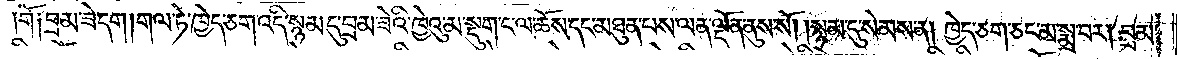གོ༑ བྲམ་ཟེ་དག །གལ་ཏེ་ཁྱེད་ཅག་འདི་སྙམ་དུ་བྲམ་ཟེའི་ཁྱེའུ་མ་སྡུག་ང་ལ་ཆོས་དང་མཐུན་པས་ལན་ལྡོན་ནུས་སོ། །སྙམ་དུ་སེམས་ན། ཁྱེད་ཅག་ཅང་མ་སྨྲ་བར། བྲམ་
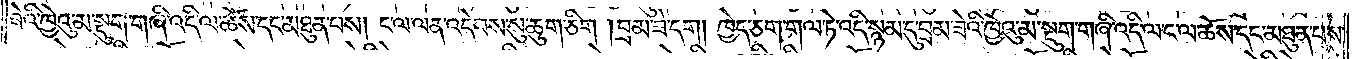ཟེའི་ཁྱེའུ་མ་སྡུག་གཞི་འདི་ལ་ཆོས་དང་མཐུན་པས། ང་ལ་ལན་འདེབས་སུ་ཆུག་ཅིག །བྲམ་ཟེ་དག། ཁྱེད་ཅག་གལ་ཏེ་འདི་སྙམ་དུ་བྲམ་ཟེའི་ཁྱེའུ་མ་སྡུག་གཞི་འདི་ལ་ང་ལ་ཆོས་དང་མཐུན་པས་
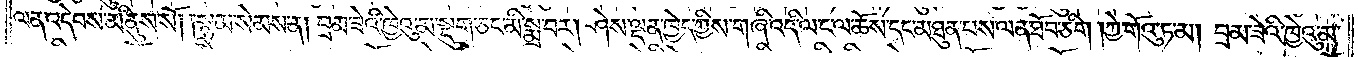ལན་འདེབས་མི་ནུས་སོ། །སྙམ་སེམས་ན། བྲམ་ཟེའི་ཁྱེའུ་མ་སྡུག་ཅང་མི་སྨྲ་བར། ཤེས་ལྡན་ཁྱེད་ཀྱིས་གཞི་འདི་ལ་ང་ལ་ཆོས་དང་མཐུན་པས་ལན་ཐོབ་ཅིག །ཀྱེ་གོའུ་ཏ་མ། བྲམ་ཟེའི་ཁྱེའུ་མ་
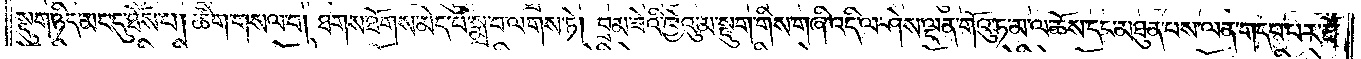སྡུག་ཉིད་མང་དུ་ཐོས་པ། ཚིག་གསལ་བ། ཐགས་ཐོགས་མེད་པ་སྨྲ་བ་ལགས་ཏེ། བྲམ་ཟེའི་ཁྱེའུ་མ་སྡུག་གིས་གཞི་འདི་ལ་ཤེས་ལྡན་གོའུ་ཏ་མ་ལ་ཆོས་དང་མཐུན་པས་ལན་གདབ་པར་རྔོ་
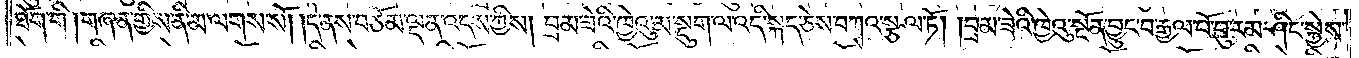ཐོག་གི །གཞན་གྱིས་ནི་མ་ལགས་སོ། །དེ་ནས་བཅོམ་ལྡན་འདས་ཀྱིས། བྲམ་ཟེའི་ཁྱེའུ་མ་སྡུག་ལ་འདི་སྐད་ཅེས་བཀའ་སྩལ་ཏོ། །བྲམ་ཟེའི་ཁྱེའུ་སྔོན་བྱུང་བ་རྒྱལ་པོ་བུ་རམ་ཤིང་སྐྱེས་
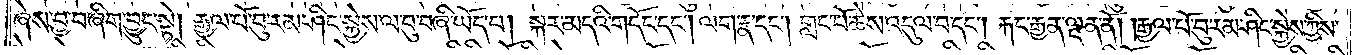ཞེས་བྱ་བ་ཞིག་བྱུང་སྟེ། རྒྱལ་པོ་བུ་རམ་ཤིང་སྐྱེས་ལ་བུ་བཞི་ཡོད་པ། སྐར་མདའི་གདོང་དང༌། ལག་རྣ་དང༌། གླང་པོ་ཆེས་འདུལ་བ་དང༌། རྐང་རྒྱན་ལྡན་ནོ། །རྒྱལ་པོ་བུ་རམ་ཤིང་སྐྱེས་ཀྱིས་
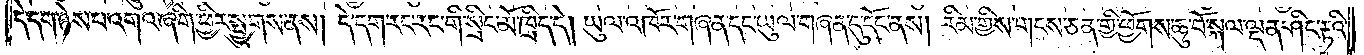དེ་དག་ཉེས་པ་འགའ་ཞིག་ཕྱིར་སྤྱུགས་ནས། དེ་དག་རང་རང་གི་སྲིང་མོ་ཁྲིད་དེ། ཡུལ་འཁོར་གཞན་དང་ཡུལ་གཞན་དུ་དོང་ནས། རིམ་གྱིས་གངས་ཅན་གྱི་ཕྱོགས་ཆུ་བོ་སྐལ་ལྡན་ཤིང་རྟའི་
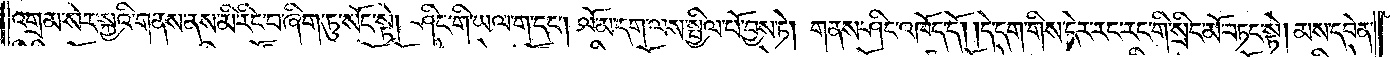འགྲམ་སེར་སྐྱའི་གནས་ནས་མི་རིང་བ་ཞིག་ཏུ་སོང་སྟེ། ཤིང་གི་ཡལ་ག་དང༌། ལོ་མ་དག་ལས་སྤྱིལ་བོ་བྱས་ཏེ། གནས་ཤིང་འཁོད་དོ། །དེ་དག་གིས་དེར་རང་རང་གི་སྲིང་མོ་བཏང་སྟེ། མས་དབེན་
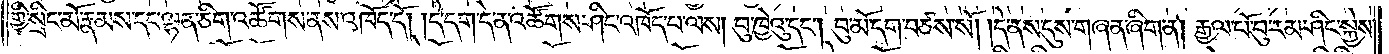གྱི་སྲིང་མོ་རྣམས་དང་ལྷན་ཅིག་འཚོགས་ནས་འཁོད་དོ། །དེ་དག་དེ་ན་འཚོགས་ཤིང་འཁོད་པ་ལས། བུ་ཁྱེའུ་དང༌། བུ་མོ་དག་བཙས་སོ། །དེ་ནས་དུས་གཞན་ཞིག་ན། རྒྱལ་པོ་བུ་རམ་ཤིང་སྐྱེས་
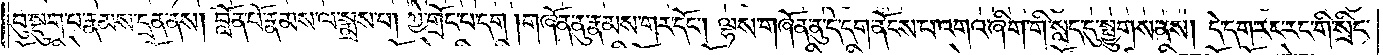བུ་སྡུག་པ་རྣམས་དྲན་ནས། བློན་པོ་རྣམས་ལ་སྨྲས་པ། ཀྱེ་གྲོང་པ་དག །གཞོན་ནུ་རྣམས་གར་དོང༌། ལྷས་གཞོན་ནུ་དེ་དག་ནོངས་པ་འགའ་ཞིག་གི་སླད་དུ་སྤྱུགས་ནས། དེ་དག་རང་རང་གི་སྲིང་
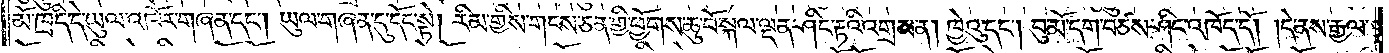མོ་ཁྲིད་དེ་ཡུལ་འཁོར་གཞན་དང༌། ཡུལ་གཞན་དུ་དོང་སྟེ། རིམ་གྱིས་གངས་ཅན་གྱི་ཕྱོགས་ཆུ་བོ་སྐལ་ལྡན་ཤིང་རྟའི་འགྲམ་ན། ཁྱེའུ་དང༌། བུ་མོ་དག་བཙས་ཤིང་འཁོད་དོ། །དེ་ནས་རྒྱལ་
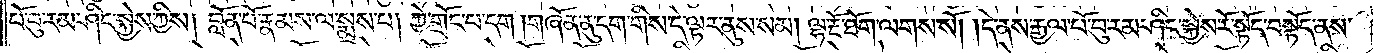པོ་བུ་རམ་ཤིང་སྐྱེས་ཀྱིས། བློན་པོ་རྣམས་ལ་སྨྲས་པ། ཀྱེ་གྲོང་པ་དག །གཞོན་ནུ་དག་གིས་དེ་ལྟར་ནུས་སམ། ལྷ་རྔོ་ཐོག་ལགས་སོ། །དེ་ནས་རྒྱལ་པོ་བུ་རམ་ཤིང་སྐྱེས་རོ་སྟོད་བསྟོད་ནས་
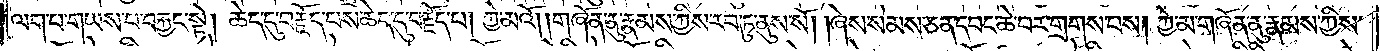ལག་པ་གཡས་པ་བརྐྱང་སྟེ། ཆེད་དུ་བརྗོད་པས་ཆེད་དུ་བརྗོད་པ། ཀྱེ་མའོ། །གཞོན་ནུ་རྣམས་ཀྱིས་རབ་ཏུ་ནུས་སོ། །ཞེས་སེམས་ཅན་དབང་ཆེ་བར་གྲགས་པས། ཀྱེ་མ་གཞོན་ནུ་རྣམས་ཀྱིས་
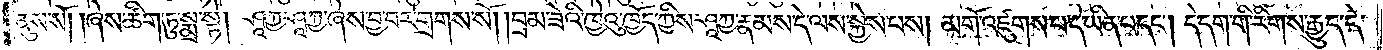ནུས་སོ། །ཞེས་ཚིག་ཏུ་སྨྲ་སྟེ། ཤཱཀྱ་ཤཱཀྱ་ཞེས་བྱ་བར་གྲགས་སོ། །བྲམ་ཟེའི་ཁྱེའུ་ཁྱོད་ཀྱིས་ཤཱཀྱ་རྣམས་དེ་ལས་སྐྱེས་པས། མགོ་འཛུགས་པ་དེ་ཡིན་པ་དང༌། དེ་དག་གི་རིགས་རྒྱུད་དེ་
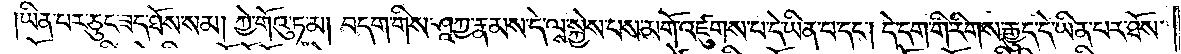ཡིན་པར་ཅུང་ཟད་ཐོས་སམ། ཀྱེ་གོའུ་ཏ་མ། བདག་གིས་ཤཱཀྱ་རྣམས་དེ་ལས་སྐྱེས་པས་མགོ་འཛུགས་པ་དེ་ཡིན་པ་དང༌། དེ་དག་གི་རིགས་རྒྱུད་དེ་ཡིན་པར་ཐོས་
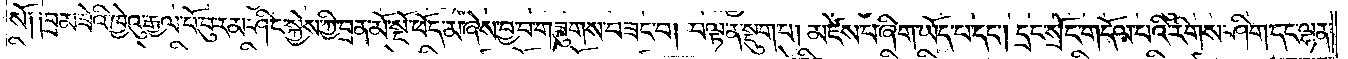སོ༑ ༑བྲམ་ཟེའི་ཁྱེའུ་རྒྱལ་པོ་བུ་རམ་ཤིང་སྐྱེས་ཀྱི་བྲན་མོ་སྔོ་ཕོད་མ་ཞེས་བྱ་བ་གཟུགས་བཟང་བ། བལྟ་ན་སྡུག་པ། མཛེས་པ་ཞིག་ཡོད་པ་དང༌། དྲང་སྲོང་གདོལ་པའི་རིགས་ཤིག་དང་ལྷན་
